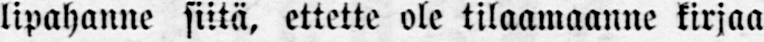lipahanne siitä, ettette ole tilaamaanne kirjaa
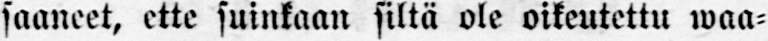saaneet, ette suinkaan siltä ole oikeutettu waa-
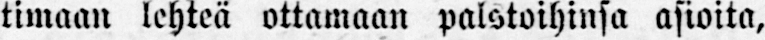timaan lehteä ottamaan palstoihinsa asioita,
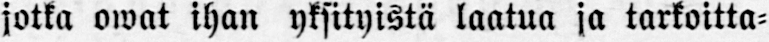jotka owat ihan yksityistä laatua ja tarkoitta-
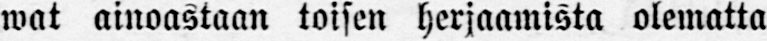wat ainoastaan toisen herjaamista olematta
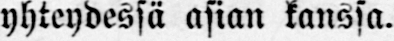yhteydessä asian kanssa.
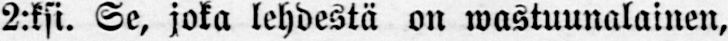2:ksi. Se, joka lehdestä on wastuunalainen,
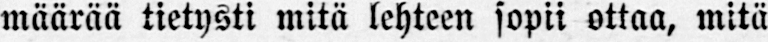määrää tietysti mitä lehteen sopii ottaa, mitä
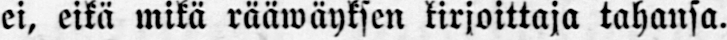ei, eikä mikä rääwäyksen kirjoittaja tahansa.
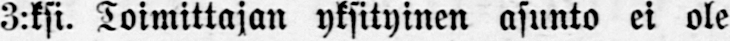3:ksi. Toimittajan yksityinen asunto ei ole
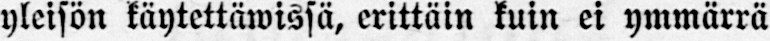yleisön käytettäwissä, erittäin kuin ei ymmärrä
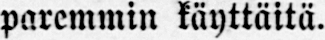paremmin käyttäitä.
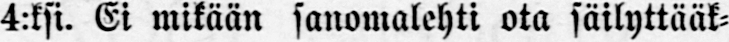4:ksi. Ei mikään sanomalehti ota säilyttääk-
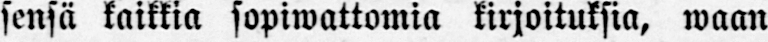sensä kaikkia sopiwattomia kirjoituksia, waan
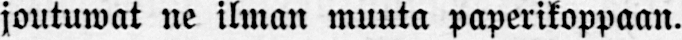joutuwat ne ilman muuta paperikoppaan.
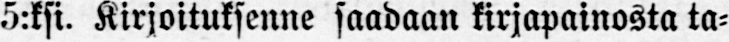5:ksi. Kirjoituksenne saadaan kirjapainosta ta-
